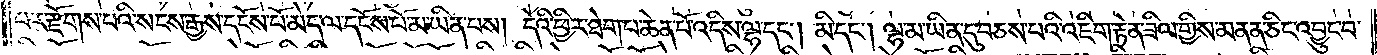པར་རྫོགས་པའི་སངས་རྒྱས་དངོས་པོ་མེད་ལ་དངོས་པོ་མ་ཡིན་པས། དེའི་ཕྱིར་ཐེག་པ་ཆེན་པོ་འདིས་ལྷ་དང༌། མི་དང༌། ལྷ་མ་ཡིན་དུ་བཅས་པའི་འཇིག་རྟེན་ཟིལ་གྱིས་མནན་ཅིང་འབྱུང་བ་
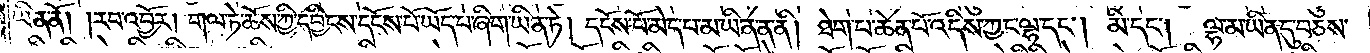ཡིན་ནོ། །རབ་འབྱོར། གལ་ཏེ་ཆོས་ཀྱི་དབྱིངས་དངོས་པོ་ཡོད་པ་ཞིག་ཡིན་ཏེ། དངོས་པོ་མེད་པ་མ་ཡིན་ན་ནི། ཐེག་པ་ཆེན་པོ་འདིས་ཀྱང་ལྷ་དང༌། མི་དང༌། ལྷ་མ་ཡིན་དུ་བཅས་
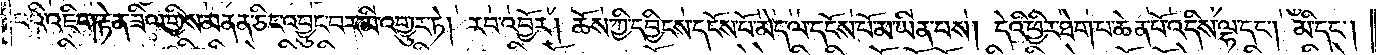པའི་འཇིག་རྟེན་ཟིལ་གྱིས་མནན་ཅིང་འབྱུང་བར་མི་འགྱུར་ཏེ། རབ་འབྱོར། ཆོས་ཀྱི་དབྱིངས་དངོས་པོ་མེད་ལ་དངོས་པོ་མ་ཡིན་པས། དེའི་ཕྱིར་ཐེག་པ་ཆེན་པོ་འདིས་ལྷ་དང༌། མི་དང༌།
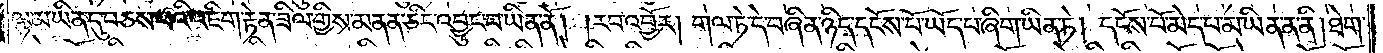ལྷ་མ་ཡིན་དུ་བཅས་པའི་འཇིག་རྟེན་ཟིལ་གྱིས་མནན་ཅིང་འབྱུང་བ་ཡིན་ནོ། །རབ་འབྱོར། གལ་ཏེ་དེ་བཞིན་ཉིད་དངོས་པོ་ཡོད་པ་ཞིག་ཡིན་ཏེ། དངོས་པོ་མེད་པ་མ་ཡིན་ན་ནི། ཐེག་
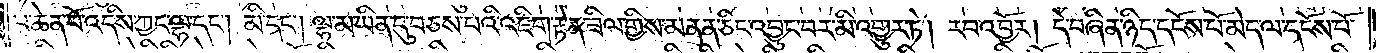པ་ཆེན་པོ་འདིས་ཀྱང་ལྷ་དང༌། མི་དང༌། ལྷ་མ་ཡིན་དུ་བཅས་པའི་འཇིག་རྟེན་ཟིལ་གྱིས་མནན་ཅིང་འབྱུང་བར་མི་འགྱུར་ཏེ། རབ་འབྱོར། དེ་བཞིན་ཉིད་དངོས་པོ་མེད་ལ་དངོས་པོ་
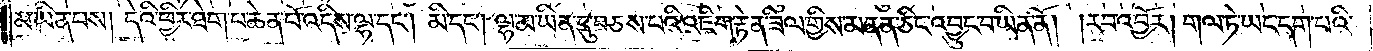མ་ཡིན་པས། དེའི་ཕྱིར་ཐེག་པ་ཆེན་པོ་འདིས་ལྷ་དང༌། མི་དང༌། ལྷ་མ་ཡིན་དུ་བཅས་པའི་འཇིག་རྟེན་ཟིལ་གྱིས་མནན་ཅིང་འབྱུང་བ་ཡིན་ནོ། །རབ་འབྱོར། གལ་ཏེ་ཡང་དག་པའི་
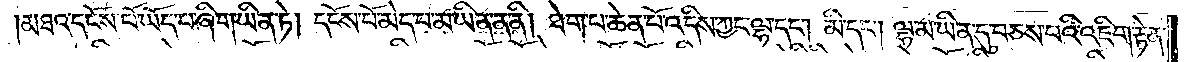མཐའ་དངོས་པོ་ཡོད་པ་ཞིག་ཡིན་ཏེ། དངོས་པོ་མེད་པ་མ་ཡིན་ན་ནི། ཐེག་པ་ཆེན་པོ་འདིས་ཀྱང་ལྷ་དང༌། མི་དང༌། ལྷ་མ་ཡིན་དུ་བཅས་པའི་འཇིག་རྟེན་
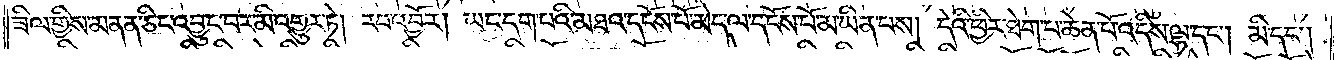ཟིལ་གྱིས་མནན་ཅིང་འབྱུང་བར་མི་འགྱུར་ཏེ། རབ་འབྱོར། ཡང་དག་པའི་མཐའ་དངོས་པོ་མེད་ལ་དངོས་པོ་མ་ཡིན་པས། དེའི་ཕྱིར་ཐེག་པ་ཆེན་པོ་འདིས་ལྷ་དང༌། མི་དང༌།
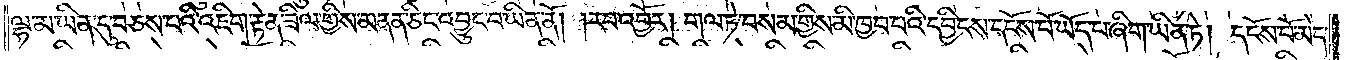ལྷ་མ་ཡིན་དུ་བཅས་པའི་འཇིག་རྟེན་ཟིལ་གྱིས་མནན་ཅིང་འབྱུང་བ་ཡིན་ནོ། །རབ་འབྱོར། གལ་ཏེ་བསམ་གྱིས་མི་ཁྱབ་པའི་དབྱིངས་དངོས་པོ་ཡོད་པ་ཞིག་ཡིན་ཏེ། དངོས་པོ་མེད་
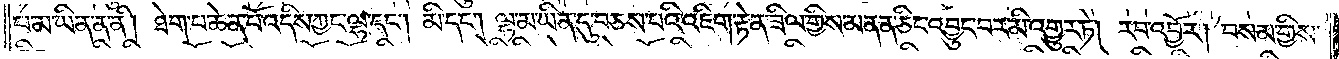པ་མ་ཡིན་ན་ནི། ཐེག་པ་ཆེན་པོ་འདིས་ཀྱང་ལྷ་དང༌། མི་དང༌། ལྷ་མ་ཡིན་དུ་བཅས་པའི་འཇིག་རྟེན་ཟིལ་གྱིས་མནན་ཅིང་འབྱུང་བར་མི་འགྱུར་ཏེ། རབ་འབྱོར། བསམ་གྱིས་
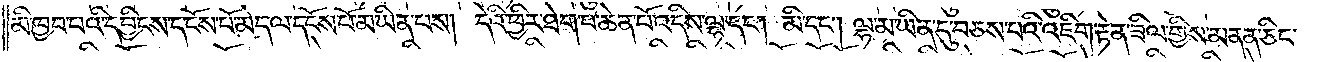མི་ཁྱབ་པའི་དབྱིངས་དངོས་པོ་མེད་ལ་དངོས་པོ་མ་ཡིན་པས། དེའི་ཕྱིར་ཐེག་པ་ཆེན་པོ་འདིས་ལྷ་དང༌། མི་དང༌། ལྷ་མ་ཡིན་དུ་བཅས་པའི་འཇིག་རྟེན་ཟིལ་གྱིས་མནན་ཅིང་
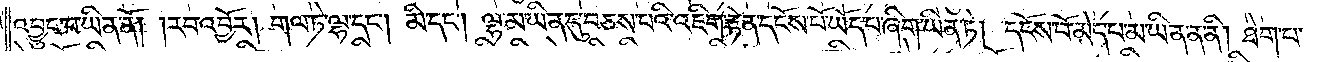འབྱུང་བ་ཡིན་ནོ། །རབ་འབྱོར། གལ་ཏེ་ལྷ་དང༌། མི་དང༌། ལྷ་མ་ཡིན་དུ་བཅས་པའི་འཇིག་རྟེན་དངོས་པོ་ཡོད་པ་ཞིག་ཡིན་ཏེ། དངོས་པོ་མེད་པ་མ་ཡིན་ན་ནི། ཐེག་པ་
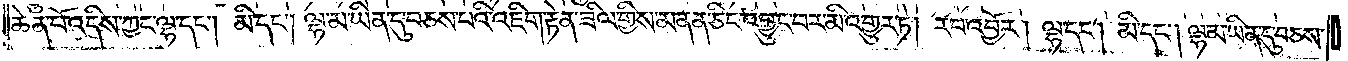ཆེན་པོ་འདིས་ཀྱང་ལྷ་དང༌། མི་དང༌། ལྷ་མ་ཡིན་དུ་བཅས་པའི་འཇིག་རྟེན་ཟིལ་གྱིས་མནན་ཅིང་འབྱུང་བར་མི་འགྱུར་ཏེ། རབ་འབྱོར། ལྷ་དང༌། མི་དང༌། ལྷ་མ་ཡིན་དུ་བཅས་
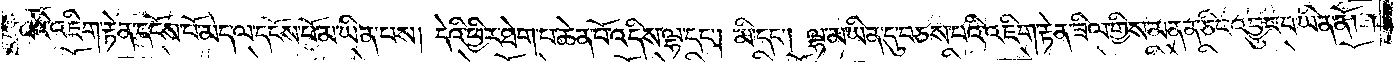པའི་འཇིག་རྟེན་དངོས་པོ་མེད་ལ་དངོས་པོ་མ་ཡིན་པས། དེའི་ཕྱིར་ཐེག་པ་ཆེན་པོ་འདིས་ལྷ་དང༌། མི་དང༌། ལྷ་མ་ཡིན་དུ་བཅས་པའི་འཇིག་རྟེན་ཟིལ་གྱིས་མནན་ཅིང་འབྱུང་བ་ཡིན་ནོ། །
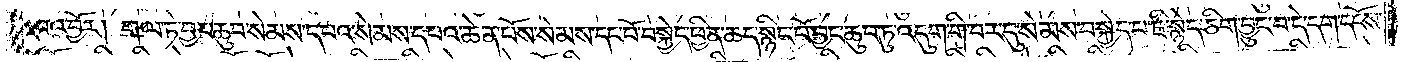རབ་འབྱོར། གལ་ཏེ་བྱང་ཆུབ་སེམས་དཔའ་སེམས་དཔའ་ཆེན་པོས་སེམས་དང་པོ་བསྐྱེད་ཕྱིན་ཆད་སྙིང་པོ་བྱང་ཆུབ་ཏུ་འདུག་གི་བར་དུ་སེམས་བསྐྱེད་པ་ཇི་སྙེད་ཅིག་བྱུང་བ་དེ་དག་དངོས་
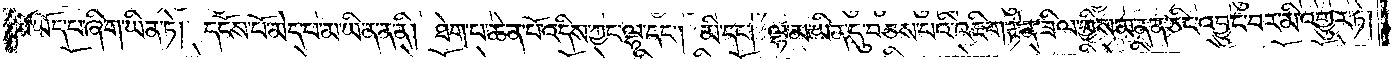པོ་ཡོད་པ་ཞིག་ཡིན་ཏེ། དངོས་པོ་མེད་པ་མ་ཡིན་ན་ནི། ཐེག་པ་ཆེན་པོ་འདིས་ཀྱང་ལྷ་དང༌། མི་དང༌། ལྷ་མ་ཡིན་དུ་བཅས་པའི་འཇིག་རྟེན་ཟིལ་གྱིས་མནན་ཅིང་འབྱུང་བར་མི་འགྱུར་ཏེ།
